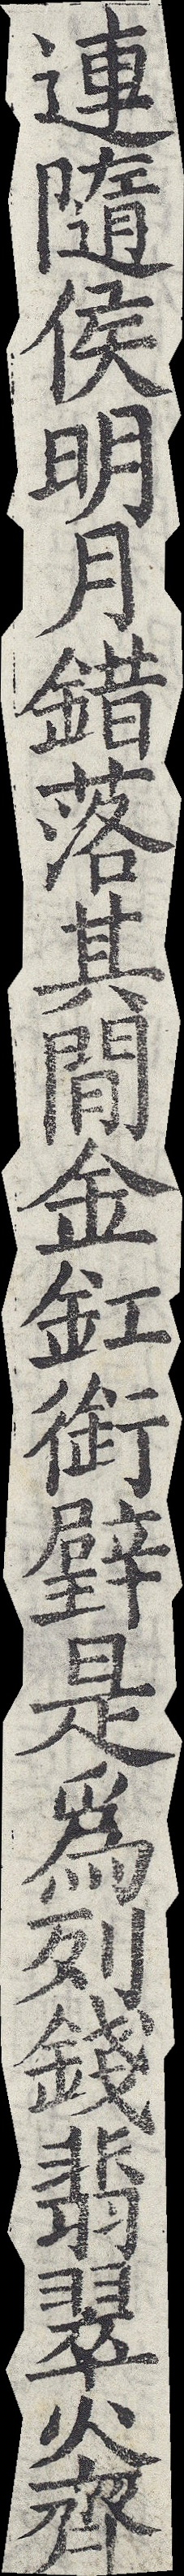連隨侯明月錯落其間金釭銜璧是為列錢翡翠火齊
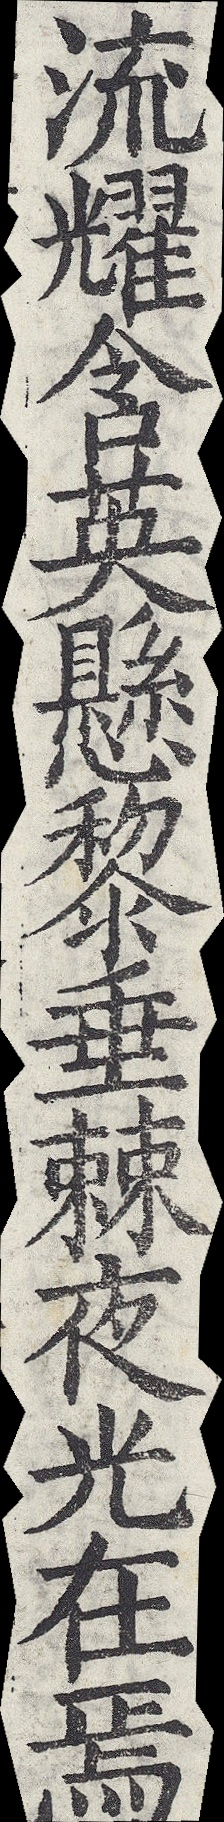流耀含英懸黎垂棘夜光在焉
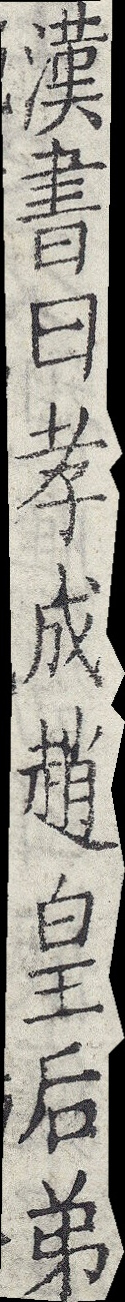漢書曰孝成趙皇后弟
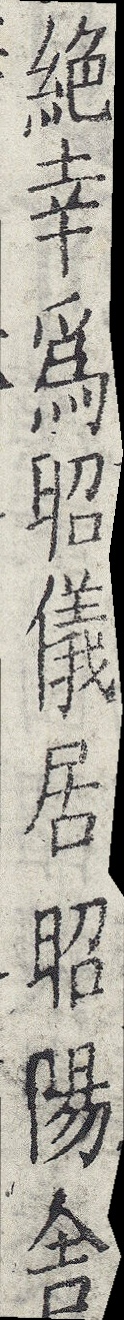絕幸為昭儀居昭陽舍
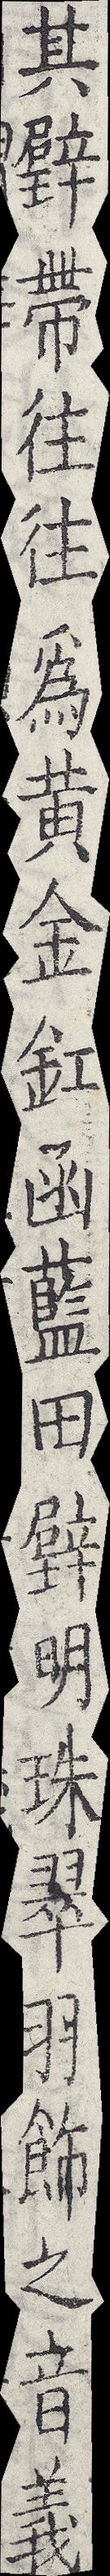其璧帶往往為黃金釭函藍田璧明珠翠羽飾之音義
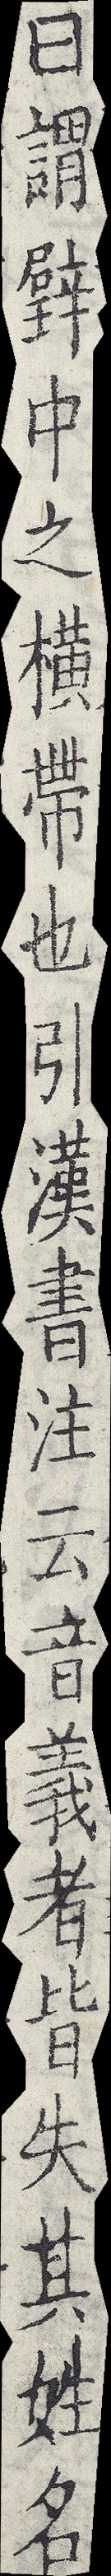曰謂璧中之橫帶也引漢書注云音義者皆失其姓名
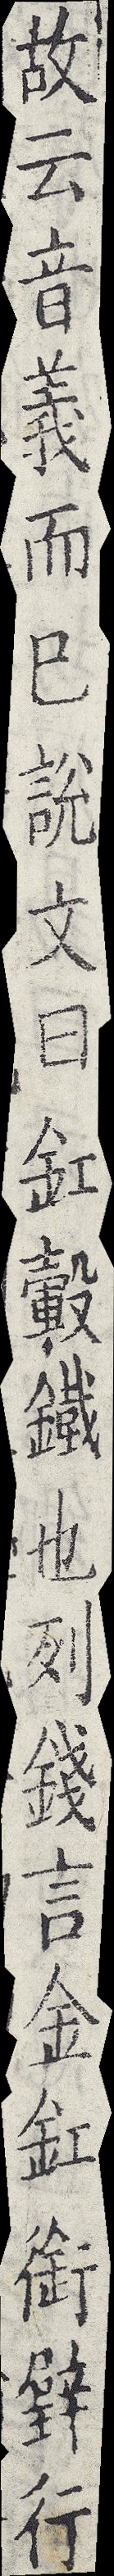故云音義而已說文曰釭轂鐵也列錢言金釭銜璧行
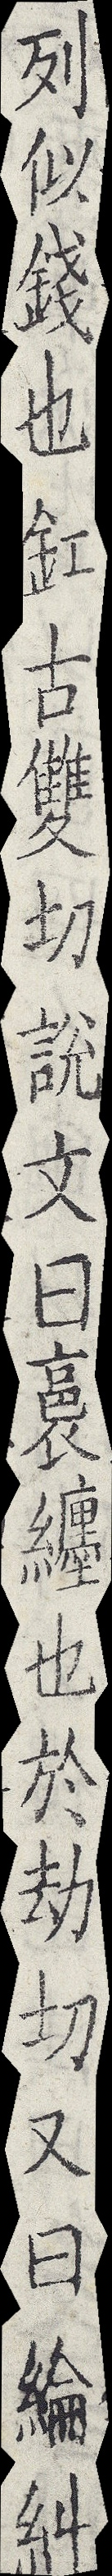列似錢也釭古雙切說文曰裛纏也於劫切又曰綸糾
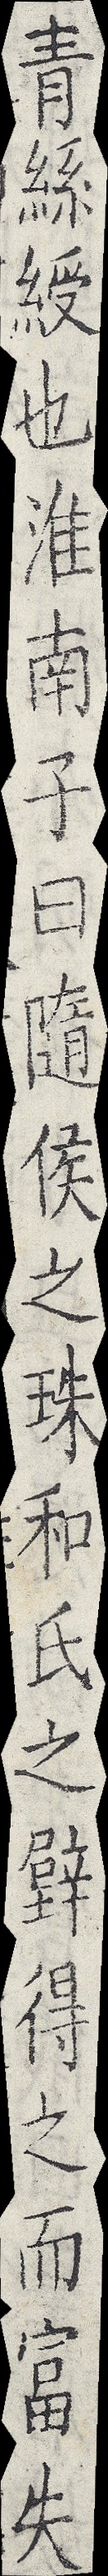青絲綬也淮南子曰隨侯之珠和氏之璧得之而富失
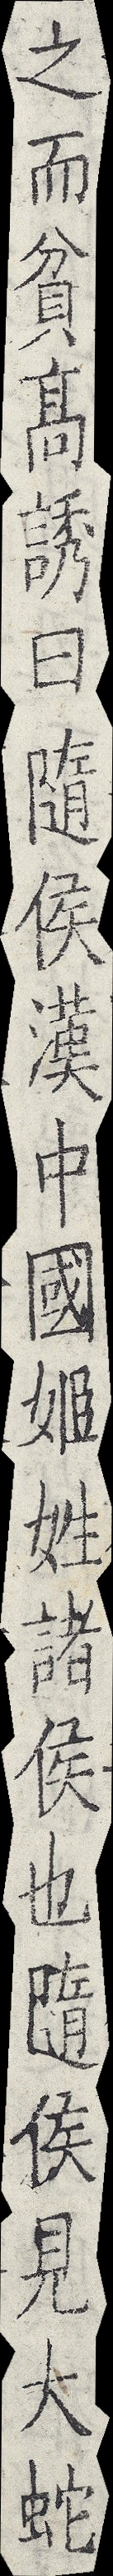之而貧高誘曰隨侯漢中國姬姓諸侯也隨侯見大蛇
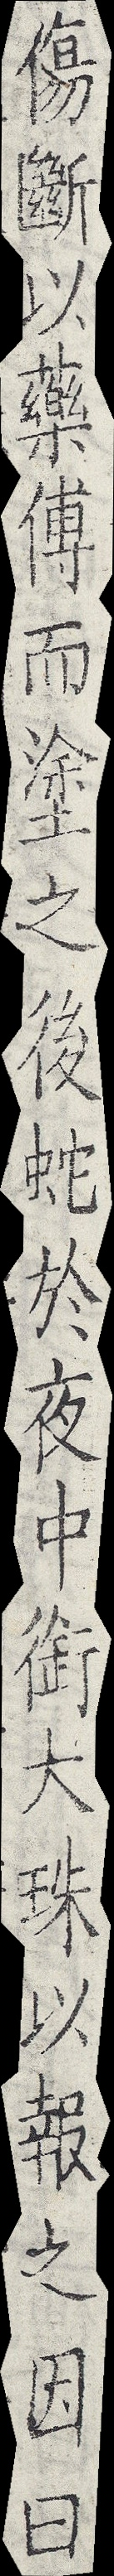傷斷以藥傅而塗之後蛇於夜中銜大珠以報之因曰
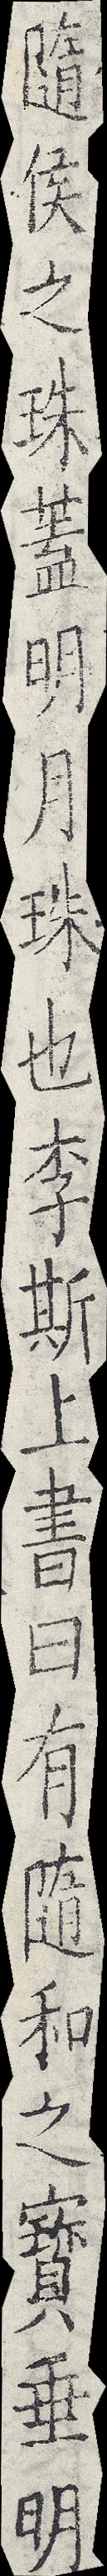隨侯之珠蓋明月珠也李斯上書曰有隨和之寶垂明
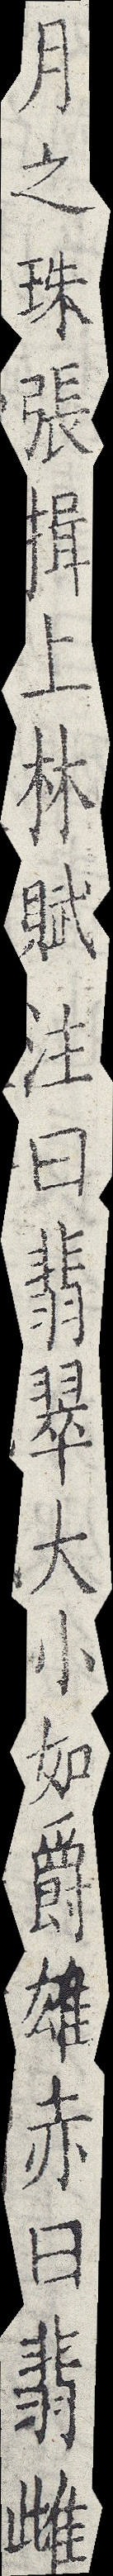月之珠張揖上林賦注曰翡翠大小如爵雄赤曰翡雌
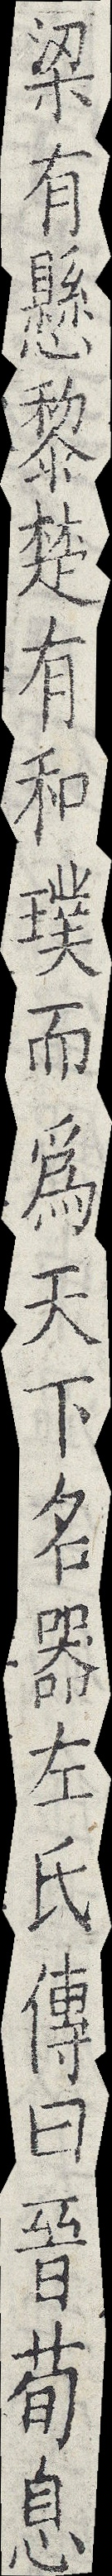梁有懸黎楚有和璞而為天下名器左氏傳曰晉荀息
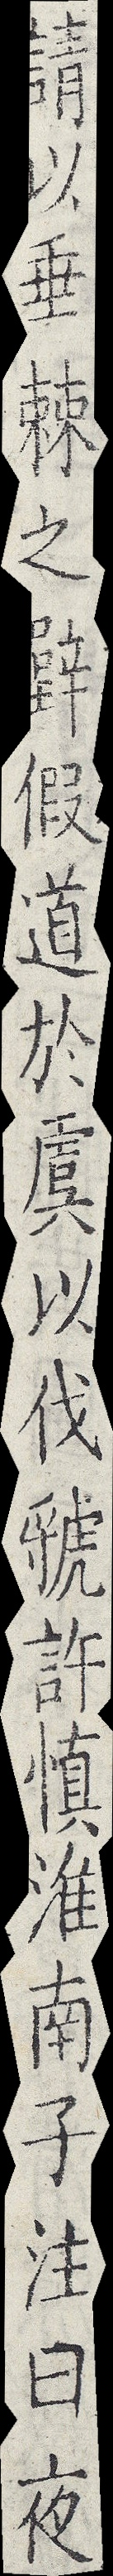請以垂棘之璧假道於虞以伐虢許慎淮南子注曰夜
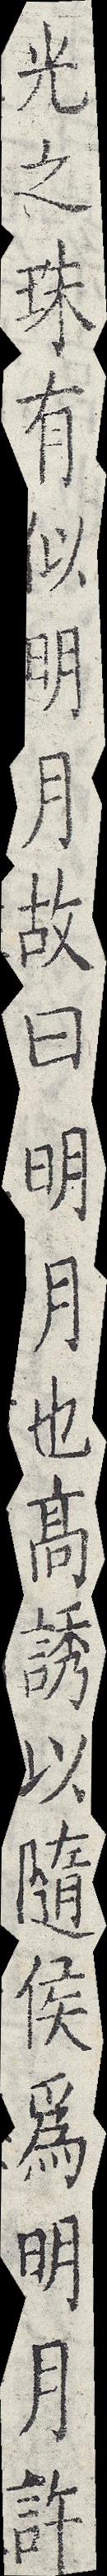光之珠有似明月故曰明月也高誘以隨侯為明月許
